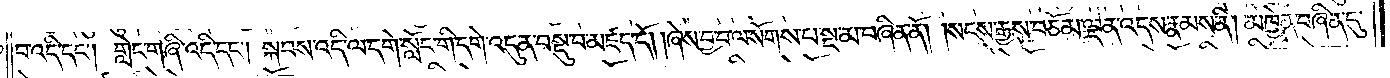བ་འདི་དང༌། གླེང་གཞི་འདི་དང༌། སྐབས་འདི་ལ་དགེ་སློང་གི་དགེ་འདུན་བསྡུ་བ་མཛད་དོ། །ཞེས་བྱ་བ་ལ་སོགས་པ་སྔ་མ་བཞིན་ནོ། །སངས་རྒྱས་བཅོམ་ལྡན་འདས་རྣམས་ནི། མཁྱེན་བཞིན་དུ་
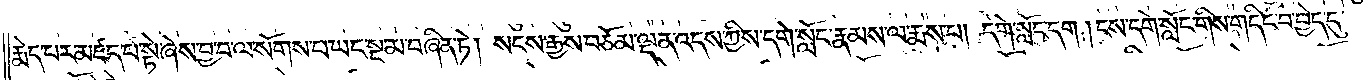རྨེད་པར་མཛད་པ་སྟེ་ཞེས་བྱ་བ་ལ་སོགས་པ་ཡང་སྔ་མ་བཞིན་ཏེ། སངས་རྒྱས་བཅོམ་ལྡན་འདས་ཀྱིས་དགེ་སློང་རྣམས་ལ་རྨས་པ། དགེ་སློང་དག །ངས་དགེ་སློང་གིས་གདིང་བ་བྱེད་དུ་
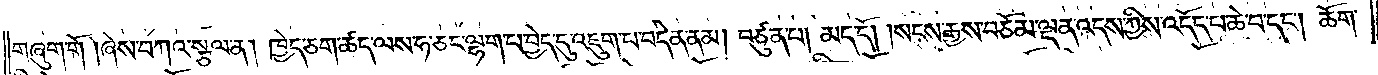གཞུག་གོ །ཞེས་བཀའ་སྩལ་ན། ཁྱེད་ཅག་ཚད་ལས་ཧ་ཅང་ལྷག་པ་བྱེད་དུ་འཇུག་པ་བདེན་ནམ། བཙུན་པ། མད་དོ། །སངས་རྒྱས་བཅོམ་ལྡན་འདས་ཀྱིས་འདོད་པ་ཆེ་བ་དང༌། ཆོག་
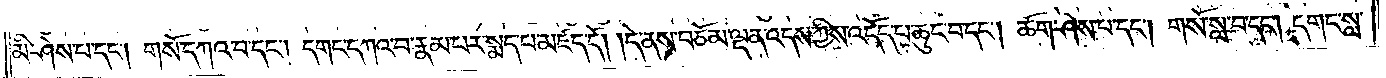མི་ཤེས་པ་དང༌། གསོ་དཀའ་བ་དང༌། དགང་དཀའ་བ་རྣམ་པར་སྨད་པ་མཛད་དོ། །དེ་ནས་བཅོམ་ལྡན་འདས་ཀྱིས་འདོད་པ་ཆུང་བ་དང༌། ཆོག་ཤེས་པ་དང༌། གསོ་སླ་བ་དང༌། དགང་སླ་
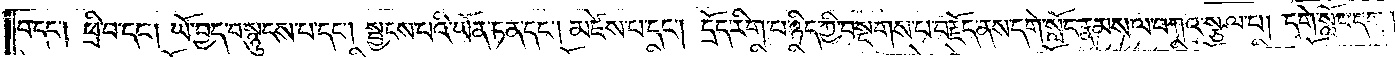བ་དང༌། ཕྲི་པ་དང༌། ཡོ་བྱད་བསྙུངས་པ་དང༌། སྦྱངས་པའི་ཡོན་ཏན་དང༌། མཛེས་པ་དང༌། དྲོད་རིག་པ་ཉིད་ཀྱི་བསྔགས་པ་བརྗོད་ནས་དགེ་སློང་རྣམས་ལ་བཀའ་སྩལ་པ། དགེ་སློང་དག །
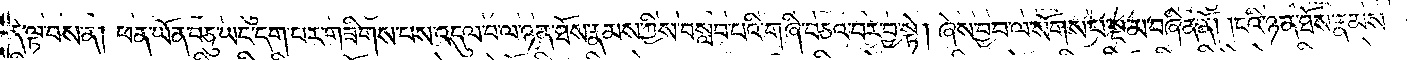དེ་ལྟ་བས་ན། ཕན་ཡོན་བཅུ་ཡང་དག་པར་གཟིགས་པས་འདུལ་བ་ལ་ཉན་ཐོས་རྣམས་ཀྱིས་བསླབ་པའི་གཞི་བཅའ་བར་བྱ་སྟེ། ཞེས་བྱ་བ་ལ་སོགས་པ་སྔ་མ་བཞིན་ནོ། །ངའི་ཉན་ཐོས་རྣམས་
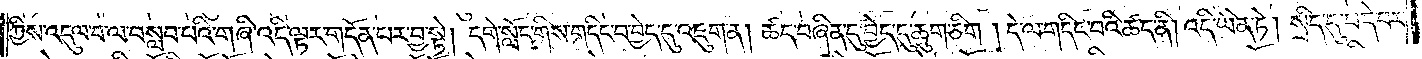ཀྱིས་འདུལ་བ་ལ་བསླབ་པའི་གཞི་འདི་ལྟར་གདོན་པར་བྱ་སྟེ། དགེ་སློང་གིས་གདིང་བ་བྱེད་དུ་འཇུག་ན། ཚད་བཞིན་དུ་བྱེད་དུ་ཆུག་ཅིག །དེ་ལ་གདིང་བའི་ཚད་ནི། འདི་ཡིན་ཏེ། སྲིད་དུ་བདེ་བར་
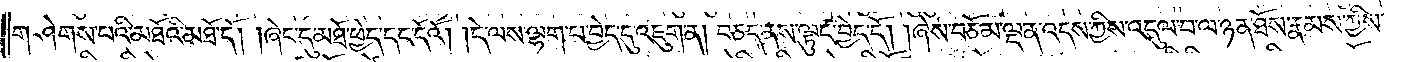གཤེགས་པའི་མཐོའི་མཐོ་དོ། །ཞེང་དུ་མཐོ་ཕྱེད་དང་དོའོ། །དེ་ལས་ལྷག་པ་བྱེད་དུ་འཇུག་ན། བཅད་ནས་ལྟུང་བྱེད་དོ། །ཞེས་བཅོམ་ལྡན་འདས་ཀྱིས་འདུལ་བ་ལ་ཉན་ཐོས་རྣམས་ཀྱིས་
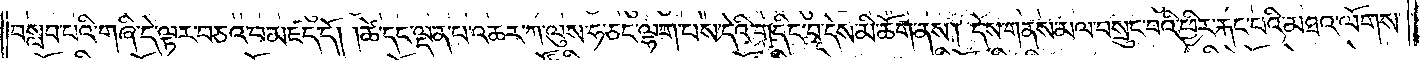བསླབ་པའི་གཞི་དེ་ལྟར་བཅའ་བ་མཛད་དོ། །ཚེ་དང་ལྡན་པ་འཆར་ཀ་ལུས་ཧ་ཅང་ལྷག་པས་དེའི་གདིང་བ་དེས་མི་ཆོག་ནས། དེས་གནས་མལ་བསྲུང་བའི་ཕྱིར་རྐང་པའི་མཐའ་ལོགས་
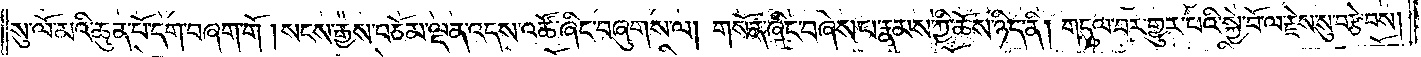སུ་ལོ་མའི་ཆུན་པོ་དག་བཞག་གོ །སངས་རྒྱས་བཅོམ་ལྡན་འདས་འཚོ་ཞིང་བཞུགས་ལ། གསོན་ཞིང་བཞེས་པ་རྣམས་ཀྱི་ཆོས་ཉིད་ནི། གདུལ་བར་གྱུར་པའི་སྐྱེ་བོ་ལ་རྗེས་སུ་བརྩེ་བས།
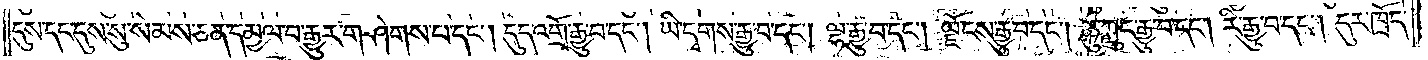དུས་དང་དུས་སུ་སེམས་ཅན་དམྱལ་བ་རྒྱུར་གཤེགས་པ་དང༌། དུད་འགྲོ་རྒྱུ་བ་དང༌། ཡི་དྭགས་རྒྱུ་བ་དང༌། ལྷ་རྒྱུ་བ་དང༌། ལྗོངས་རྒྱུ་བ་དང༌། ཆུ་ཀླུང་རྒྱུ་བ་དང༌། རི་རྒྱུ་བ་དང༌། དུར་ཁྲོད་
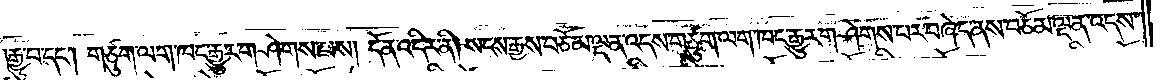།རྒྱུ་བ་དང༌། གཙུག་ལག་ཁང་རྒྱུར་གཤེགས་པས། དོན་འདིར་ནི། སངས་རྒྱས་བཅོམ་ལྡན་འདས་གཙུག་ལག་ཁང་རྒྱུར་གཤེགས་པར་བཞེད་ནས་བཅོམ་ལྡན་འདས་
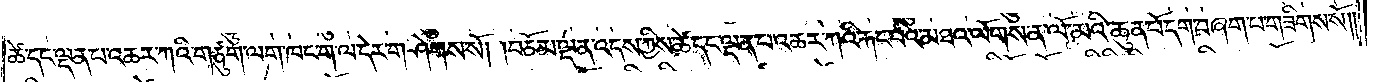ཚེ་དང་ལྡན་པ་འཆར་ཀའི་གཙུག་ལག་ཁང་ག་ལ་དེར་གཤེགས་སོ། །བཅོམ་ལྡན་འདས་ཀྱིས་ཚེ་དང་ལྡན་པ་འཆར་ཀའི་རྐང་པའི་མཐའ་ལོགས་ན་ལོ་མའི་ཆུན་པོ་དག་བཞག་པ་གཟིགས་སོ༎
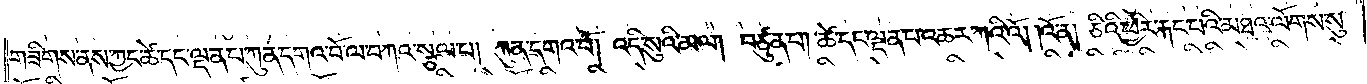གཟིགས་ནས་ཀྱང་ཚེ་དང་ལྡན་པ་ཀུན་དགའ་བོ་ལ་བཀའ་སྩལ་པ། ཀུན་དགའ་བོ། འདི་སུའི་མལ། བཙུན་པ། ཚེ་དང་ལྡན་པ་འཆར་ཀའི་འོ། འོ་ན། ཅིའི་ཕྱིར་རྐང་པའི་མཐའ་ལོགས་སུ་
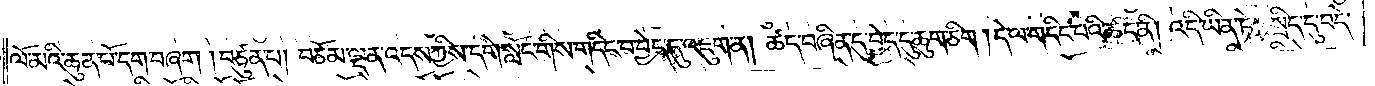ལོ་མའི་ཆུན་པོ་དག་བཞག །བཙུན་པ། བཅོམ་ལྡན་འདས་ཀྱིས་དགེ་སློང་གིས་གདིང་བ་བྱེད་དུ་འཇུག་ན། ཚད་བཞིན་དུ་བྱེད་དུ་ཆུག་ཅིག །དེ་ལ་གདིང་བའི་ཚད་ནི། འདི་ཡིན་ཏེ། སྲིད་དུ་བདེ་
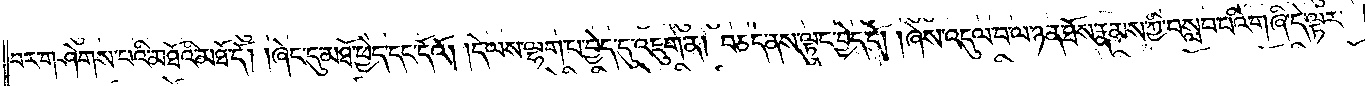བར་གཤེགས་པའི་མཐོའི་མཐོ་དོ། །ཞེང་དུ་མཐོ་ཕྱེད་དང་དོའོ། །དེ་ལས་ལྷག་པ་བྱེད་དུ་འཇུག་ན། བཅད་ནས་ལྟུང་བྱེད་དོ། །ཞེས་འདུལ་བ་ལ་ཉན་ཐོས་རྣམས་ཀྱི་བསླབ་པའི་གཞི་དེ་ལྟར་
